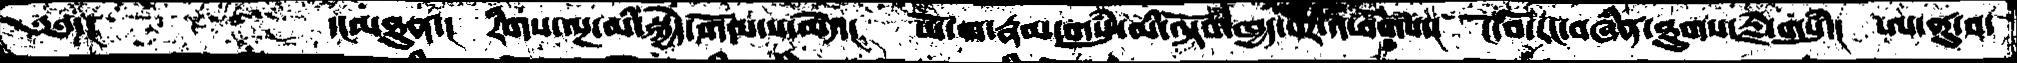༄༅་།       ་།མཐུན་།  རིགས་ལྔ་མི་སྐྱོད་གོལ་ས་མེད་།  ཡོ་ག་རྣམ་གསུཾ་མི་ལྟོས་ཁྱད་པར་འཕགས་།  ངོ་བོ་རང་བཞིན་ཐུགས་རྗེ་གསུཾ་།  ཨ་ནུ་བ་
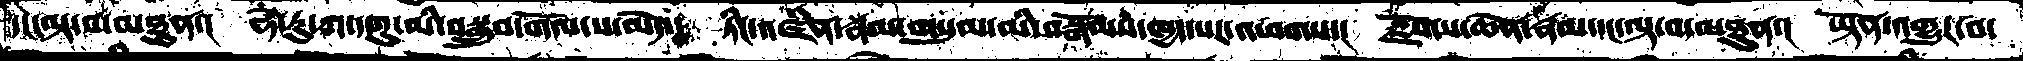དང་ལྟ་བ་མཐུན་།  ཧེ་རུ་ཀ་དགུ་མི་བསྒྲུབ་གོལ་ས་མེད་།  ཏིང་འཛིན་རྣམ་གསུམ་མི་བསྒོམས་ཁྱད་པར་འཕགས་།   སྫོགས་ཆེན་རྣམ་དང་ལྟ་བ་མཐུན་།  ཡྟོན་འགྱུར་བ་
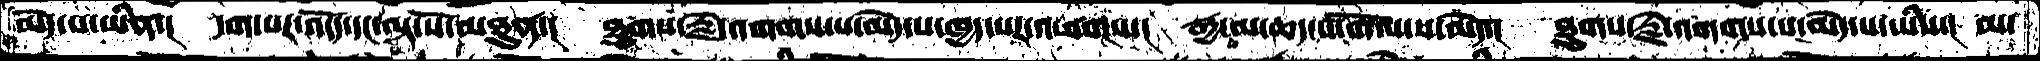མེད་པ་ཡིན་།  དག་པར་འདོད་དང་ལྟ་སོ་མཐུན་།   ཐུགས་རྗེ་འགགས་པ་མེད་པ་ཁྱད་པར་འཕགས་།   རྒྱ་མ་ཆད་པ་གོལ་ས་མེད་།  ཐུགས་རྗེ་འགགས་པ་མེད་པ་ཡིས་།  མ་
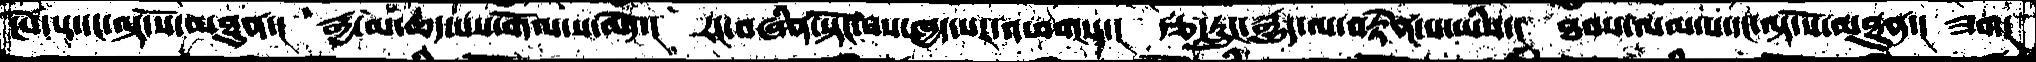ངེས་པ་དང་ལྟ་སོ་མཐུན་།  རྒྱ་མ་ཆད་པས་གོལ་ས་མེད་།  རང་བཞིན་སྟོང་པས་ཁྱད་པར་འཕགས་།  རྩ་རླུང་རྒྱུད་ལ་བརྟེན་པ་ཡིས་།  ཐབས་ལམ་པ་དང་ལྟ་སོ་མཐུན་།   ཟག་
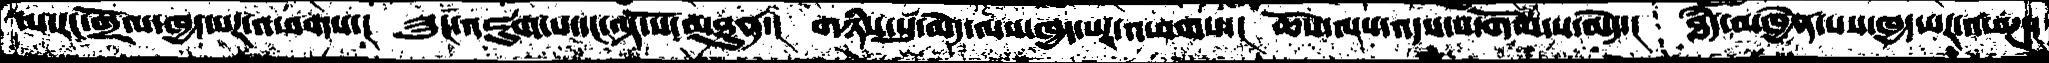མ་རང་གྲོལ་ཁྱད་པར་འཕགས་།  ཟུང་འཇུག་པ་དང་ལྟ་སོ་མཐུན་།  གཉིས་སུ་མེད་ལས་ཁྱད་པར་འཕགས་།  ཆོས་ལས་འདས་པ་གོལ་ས་མེད་།  ཐཾད་མཁྱེན་པས་ཁྱད་པར་འཕཌ་།
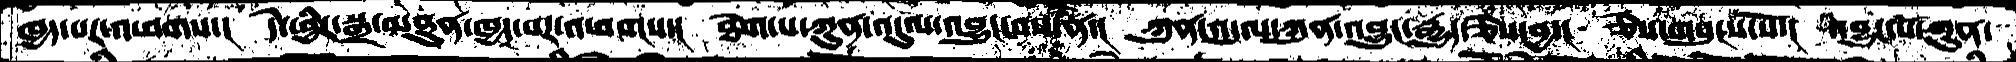ཁྱད་པར་འཕགས་།  དེ་ཕྱིར་སྒྲ་མཐུན་ཁྱད་པར་འཕགས་།   ཐེག་པ་ཀུན་འདུལ་འབྱུང་བས་དོན་།  ཀུན་འདུལ་ཀུན་འབྱུང་རྒྱུད་ཅེས་བྱ་།  ཅེས་གསུངས་སོ་།  འབྱུང་པོ་ཀུན
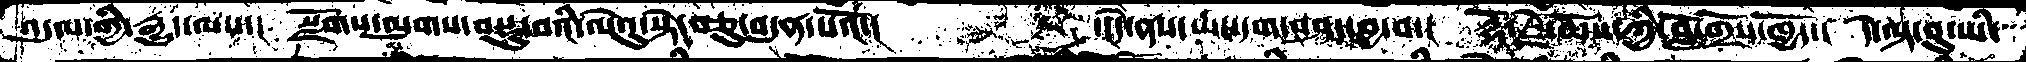འདུལ་གྱི་རྒྱུད་ལས་།   སྫོགས་ལུགས་བསྡུ་བའི་ལེའུ་སྟེ་བཅུ་བདུན་པའོ་།   ་།དེ་ནས་ཡང་དག་བཤད་བྱ་བ་།   རྡོ་རྗེ་ཆོས་ཀྱི་བློ་གྲོས་ཁྱོད་།  དེ་ལྟ་བུ་ཡི་
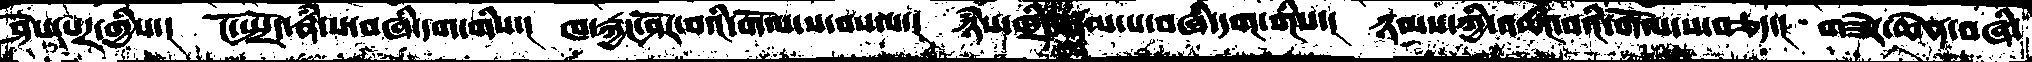ཤེས་པར་གྱིས་།  ངོ་སྤྲོད་རྣཾ་པ་བཞི་དག་གིས་།  ཁ་རྐྱང་ཤོར་བའི་གོལ་ས་བསལ་།  ཉཾས་ཁྲིད་རྣམ་པ་བཞི་དག་གིས་།  ཉམས་ཀྱི་འཆིང་བའི་གོལ་ས་བཅད་།  གཟེར་ཆེན་བཞི་
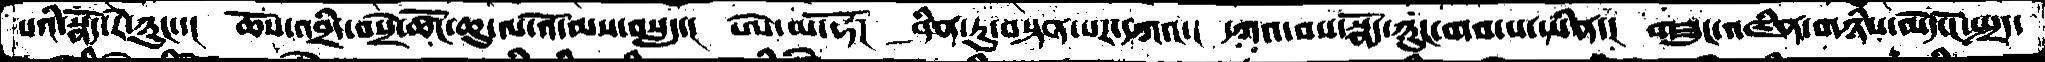པའི་སྣོད་རེ་ཉུང་་།  ཆོས་འབྲིད་བསྲེ་ཚོང་ཆུ་ལ་འོད་མས་བསླད་།  ཨེ་མ་ཧོ།  ཤིན་ཏུ་བསྟན་པར་དཀའ་།  དཀའ་བས་སྣོད་ཉུང་གབ་པ་ཡིན་།  གཟུང་འཛིན་གཉིས་མེད་ངོ་སྤྲད་
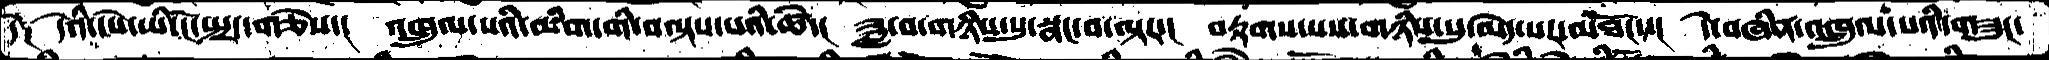དེ༑  དེའི་དཔེ་ཡི་ངོ་སྤྲད་གཅེས་།  འཁྲུལ་པའི་མིག་གི་བལྟསཔའི་ཚེ་།  ཟླ་བ་གཉིས་སུ་སྣང་བ་ལྟར་།  བརྟགས་པས་གཉིས་སུ་མེད་པར་མཐོང་་།  དེ་བཞིན་འཁྲུལ་པའི་གཟུང་
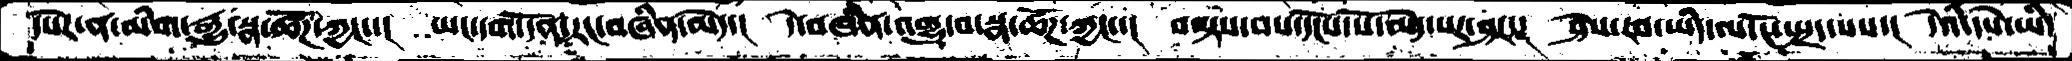དཔེར་ན་མིག་རྒྱུ་སྣ་ཚོཌ་ཀྱང་་།  ཡང་དག་དོན་རང་བཞིན་མེད་།  དེ་བཞིན་འགྱུ་བ་སྣ་ཚོཌ་ཀྱང་་།  བལྟས་བས་དངོས་པོ་མེད་པར་ཤར་།  ཤེས་རབ་ཡིད་ལ་ངོ་སྤྲད་པས་།  དེའི་དཔེ་ཡི་
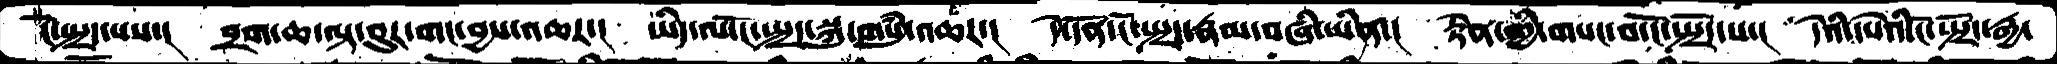ངོ་སྤྲད་པས་།   བྲག་ཆ་ལྟ་བུར་གང་བྱས་འཆར་།  ཡིད་ལ་ངོ་སྤྲད་སྐུ་གསུཾ་འཆར་།  དེ་དོན་ངོ་སྤྲད་རྣམ་བཞི་ཡིན་།   རྟེན་གྱི་གསང་བ་ངོ་སྤྲོད་པ་།  དེའི་དཔེའི་ངོ་སྤྲོད་རྒྱ་
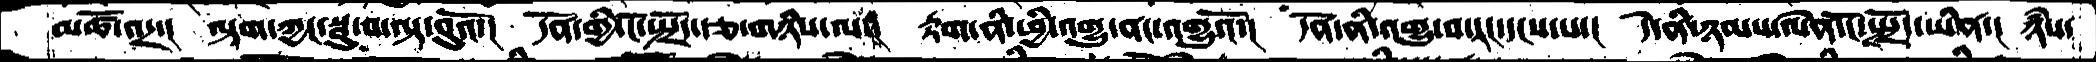མཚོ་འདྲ་།  ལྟག་ཀྱང་སྦུ་བ་ལྟ་བུའོ་།  དོན་གྱི་ངོ་སྤྲོད་རྩ་གཉིས་ལ་།  རྟག་ནི་ཕྱི་འགྱུ་ནང་འགྱུའོ་།  དོན་ནི་འགྱུ་བ་རང་དངས་པ་།  དེ་ནི་ཉམས་ལེན་ངོ་སྤྲོད་ཡིན་།  ཉཾས་
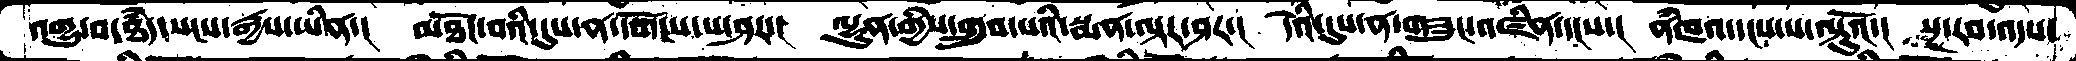འགྱུ་བ་ཐཾད་སངས་རྒྱས་ཡིན་།  མཐོང་བའི་དུས་ན་དགོངས་པ་ཤར་།  ལྷུན་གྱིས་གྲུབ་པའི་སྨན་ལྟར་ཤར་།  དེའི་དུས་ན་གཟུང་འཛིན་དངས་།  ནཾཁའ་དངས་པ་ལྟུའོ་།  སྔ་རབ་འདས་
